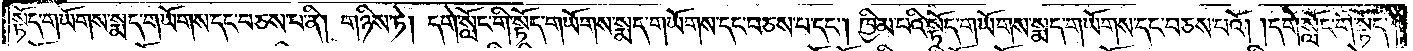སྟོད་གཡོགས་སྨད་གཡོགས་དང་བཅས་པ་ནི། གཉིས་ཏེ། དགེ་སློང་གི་སྟོད་གཡོགས་སྨད་གཡོགས་དང་བཅས་པ་དང༌། ཁྱིམ་པའི་སྟོད་གཡོགས་སྨད་གཡོགས་དང་བཅས་པའོ། །དགེ་སློང་གི་སྟོད་
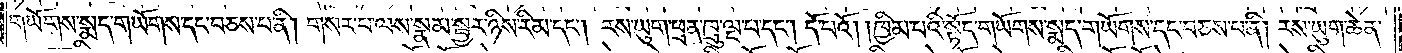གཡོགས་སྨད་གཡོགས་དང་བཅས་པ་ནི། གསར་པ་ལས་སྣམ་སྦྱར་ཉིས་རིམ་དང༌། རས་ཡུག་ཕྲན་ཁྲུ་ལྔ་པ་དང༌། དོ་པའོ། །ཁྱིམ་པའི་སྟོད་གཡོགས་སྨད་གཡོགས་དང་བཅས་པ་ནི། རས་ཡུག་ཆེན་
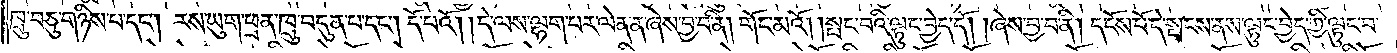ཁྲུ་བཅུ་གཉིས་པ་དང༌། རས་ཡུག་ཕྲན་ཁྲུ་བདུན་པ་དང༌། དོ་པའོ། །དེ་ལས་ལྷག་པར་ལེན་ན་ཞེས་བྱ་བ་ནི། གོང་མའོ། །སྤང་བའི་ལྟུང་བྱེད་དོ། །ཞེས་བྱ་བ་ནི། དངོས་པོ་དེ་སྤངས་ནས་ལྟུང་བྱེད་ཀྱི་ལྟུང་བ་
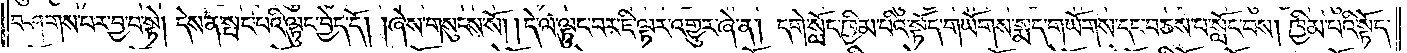བཤགས་པར་བྱ་བ་སྟེ། དེས་ན་སྤང་པའི་ལྟུང་བྱེད་དོ། །ཞེས་གསུངས་སོ། །དེ་ལ་ལྟུང་བར་ཇི་ལྟར་འགྱུར་ཞེ་ན། དགེ་སློང་ཁྱིམ་པའི་སྟོད་གཡོགས་སྨད་གཡོགས་དང་བཅས་པ་སློང་བས། ཁྱིམ་པའི་སྟོད་
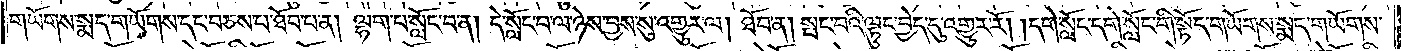གཡོགས་སྨད་གཡོགས་དང་བཅས་པ་ཐོབ་པ་ན། ལྷག་པ་སློང་བ་ན། དེ་སློང་བ་ལ་ཉེས་བྱས་སུ་འགྱུར་ལ། ཐོབ་ན། སྤང་བའི་ལྟུང་བྱེད་དུ་འགྱུར་རོ། །དགེ་སློང་དགེ་སློང་གི་སྟོད་གཡོགས་སྨད་གཡོགས་
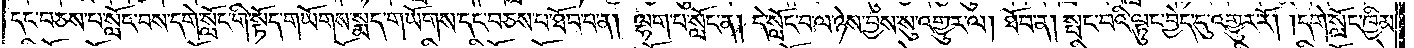དང་བཅས་པ་སློང་བས་དགེ་སློང་གི་སྟོད་གཡོགས་སྨད་གཡོགས་དང་བཅས་པ་ཐོབ་པ་ན། ལྷག་པ་སློང་ན། དེ་སློང་བ་ལ་ཉེས་བྱས་སུ་འགྱུར་ལ། ཐོབ་ན། སྤང་བའི་ལྟུང་བྱེད་དུ་འགྱུར་རོ། །དགེ་སློང་ཁྱིམ་
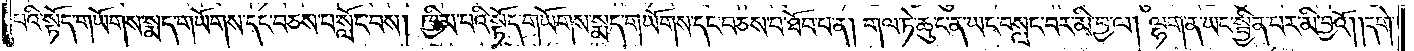པའི་སྟོད་གཡོགས་སྨད་གཡོགས་དང་བཅས་པ་སློང་བས། ཁྱིམ་པའི་སྟོད་གཡོགས་སྨད་གཡོགས་དང་བཅས་པ་ཐོབ་པ་ན། གལ་ཏེ་ཆུང་ན་ཡང་བསླང་བར་མི་བྱ་ལ། ལྷག་ན་ཡང་སྦྱིན་པར་མི་བྱའོ། །དགེ་
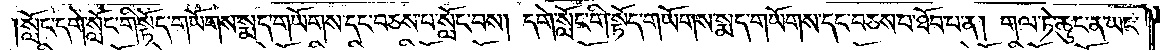སློང་དགེ་སློང་གི་སྟོད་གཡོགས་སྨད་གཡོགས་དང་བཅས་པ་སློང་བས། དགེ་སློང་གི་སྟོད་གཡོགས་སྨད་གཡོགས་དང་བཅས་པ་ཐོབ་པ་ན། གལ་ཏེ་ཆུང་ན་ཡང་
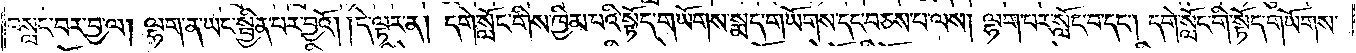བསླང་བར་བྱ་ལ། ལྷག་ན་ཡང་སྦྱིན་པར་བྱའོ། །དེ་ལྟར་ན། དགེ་སློང་གིས་ཁྱིམ་པའི་སྟོད་གཡོགས་སྨད་གཡོགས་དང་བཅས་པ་ལས། ལྷག་པར་སློང་བ་དང༌། དགེ་སློང་གི་སྟོད་གཡོགས་
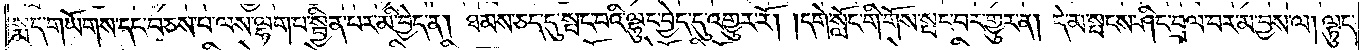སྨད་གཡོགས་དང་བཅས་པ་ལས་ལྷག་པ་སྦྱིན་པར་མི་བྱེད་ན། ཐམས་ཅད་དུ་སྤང་བའི་ལྷུང་བྱེད་དུ་འགྱུར་རོ། །དགེ་སློང་གི་གོས་སྤང་བར་གྱུར་ན། དེ་མ་སྤངས་ཤིང་བྲལ་བར་མ་བྱས་ལ། ལྟུང་
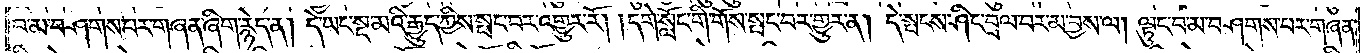བ་མ་བཤགས་པར་གཞན་ཞིག་རྙེད་ན། དེ་ཡང་སྔ་མའི་རྒྱུད་ཀྱིས་སྤང་བར་འགྱུར་རོ། །དགེ་སློང་གི་གོས་སྤང་བར་གྱུར་ན། དེ་སྤངས་ཤིང་བྲལ་བར་མ་བྱས་ལ། ལྟུང་བ་མ་བཤགས་པར་གཞན་
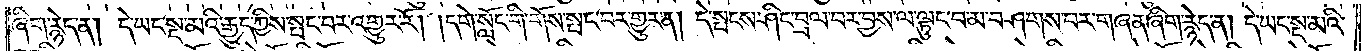ཞིག་རྙེད་ན། དེ་ཡང་སྔ་མའི་རྒྱུད་ཀྱིས་སྤང་བར་འགྱུར་རོ། །དགེ་སློང་གི་གོས་སྤང་བར་གྱུར་ན། དེ་སྤངས་ཤིང་བྲལ་བར་བྱས་ལ་ལྟུང་བ་མ་བཤགས་པར་གཞན་ཞིག་རྙེད་ན། དེ་ཡང་སྔ་མའི་
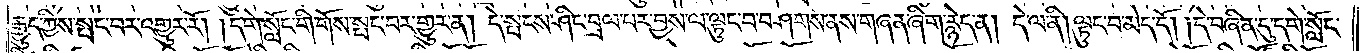རྒྱུད་ཀྱིས་སྤང་བར་འགྱུར་རོ། །དགེ་སློང་གི་གོས་སྤང་བར་གྱུར་ན། དེ་སྤངས་ཤིང་བྲལ་བར་བྱས་ལ་ལྟུང་བ་བཤགས་ནས་གཞན་ཞིག་རྙེད་ན། དེ་ལ་ནི། ལྟུང་བ་མེད་དོ། །དེ་བཞིན་དུ་དགེ་སློང་
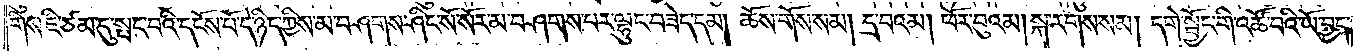གིས་ཇི་ཙམ་དུ་སྤང་བའི་དངོས་པོ་དེ་ཉིད་ཀྱིས་མ་བཤགས་ཤིང་སོ་སོར་མ་བཤགས་པར་ལྷུང་བཟེད་དམ། ཆོས་གོས་སམ། དྲ་བའམ། ཕོར་བུའམ། སྐ་རགས་སམ། དགེ་སྦྱོང་གི་འཚོ་བའི་ཡོ་བྱད་
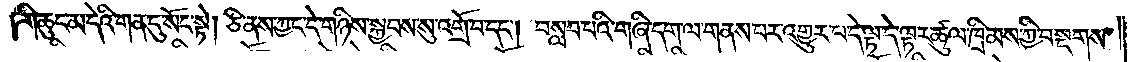གི་ཆུང་མ་དེའི་གན་དུ་སོང་སྟེ། ཅི་ནས་ཀྱང་དེ་གཉིས་སྐྱབས་སུ་འགྲོ་བ་དང༌། བསླབ་པའི་གཞི་དག་ལ་གནས་པར་འགྱུར་པ་དེ་ལྟ་དེ་ལྟར་ཚུལ་ཁྲིམས་ཀྱི་བསྔགས་
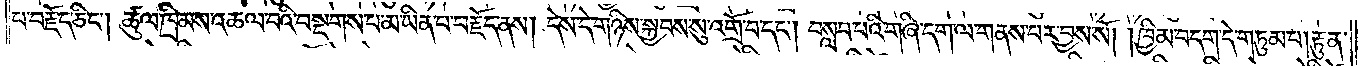པ་བརྗོད་ཅིང༌། ཚུལ་ཁྲིམས་འཆལ་བའི་བསྔགས་པ་མ་ཡིན་པ་བརྗོད་ནས། དེས་དེ་གཉིས་སྐྱབས་སུ་འགྲོ་བ་དང༌། བསླབ་པའི་གཞི་དག་ལ་གནས་པར་བྱས་སོ། །ཁྱིམ་བདག་དེ་གཏུམ་པ། རྟུན་
